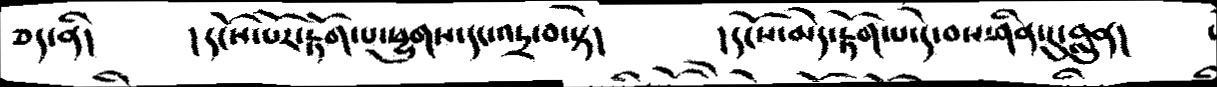ཅད་ནི།    །དངོས་པོར་རྟོག་པ་ཕྱུགས་དང་འདྲ་བ་སྟེ།    ། དངོས་མེད་རྟོག་པ་དེ་བས་ཤིན་དུ་བླུན།
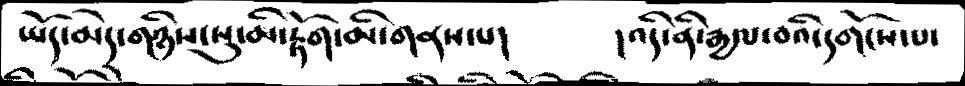ཡོད་མེད་གཉིས་སུ་མི་རྟོག་མི་གནས་པ།     ། འདི་ནི་རྒྱལ་བའི་དགོངས་པ་
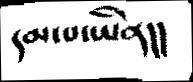དམ་པ་ཡིན།།
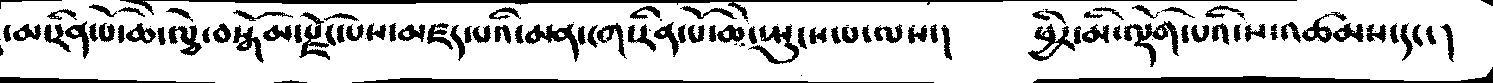་མ་རིན་པོ་ཆེ་ལྕེ་བསྒོམ་རྫོང་པས་མཛད་པའི་མན་ངག་རིན་པོ་ཆེ་སྤུངས་པ་ལས་།   ཕྱིར་མི་ལྡོག་པའི་ས་མཚམས་དང་
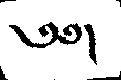༄༅།
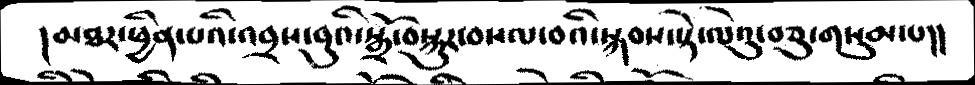།མཐར་ཕྱིན་པའི་འབྲས་བུའི་སྒྲོ་བསྐུར་བསལ་བའི་སྐབས་སྟེ་ལེའུ་བཅུ་གསུམ་པ།།
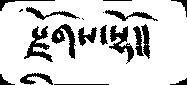རྫོགས་སྷོ།།
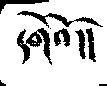དགེའོ།།
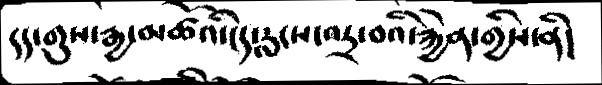དད་གུས་རྒྱ་མཚོའི་ངད་རླངས་འདྲ་བའི་རྐྱེན་གྱིས་ནི།
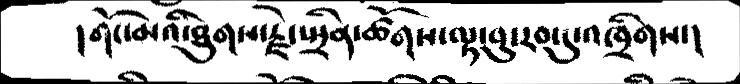།གོང་མའི་ཐུགས་རྗེ་སྤྲིན་ཚོགས་ལྟ་བུ་རབ་དུ་འཁྲིགས་།
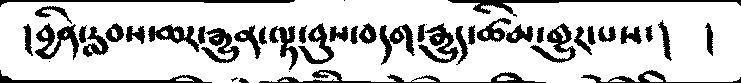།བྱིན་རླབས་ཆར་རྒྱུན་ལྟ་བུས་བདག་རྒྱུད་ཚིམ་གྱུར་པས་།  །
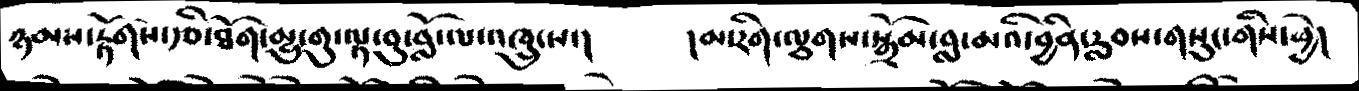ཉམས་རྟོགས་རྩི་ཐོག་མྱུ་གུ་ལྟ་བུ་བློ་ལ་འཁྲུངས་།        །མ་རིག་ལྕགས་སྒྲོམ་བླ་མའི་བྱིན་རླབས་གསུང་གིས་ཕྱེ།
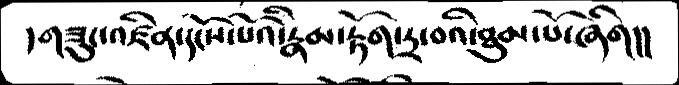།གཟུང་འཛིན་དངོས་པོའི་རྣམ་རྟོག་དྲ་བའི་ཐུམ་པོ་ཞིག།།
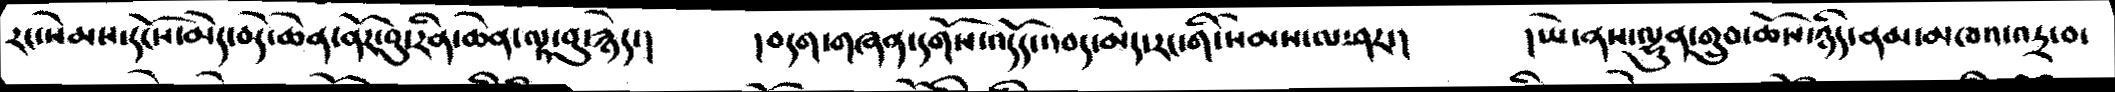རང་སེམས་དངོས་མེད་བདེ་ཆེན་ནོར་བུ་རིན་ཆེན་ལྟ་བུ་རྙེད་།   །བདག་གཞན་དགོས་འདོད་འབད་མེད་རང་གི་སེམས་ལ་ཤར་།    །ཡེ་ནས་ལྷུན་གྲུབ་ཆོས་ཉིད་ནམ་མཁའ་འདྲ་བ་
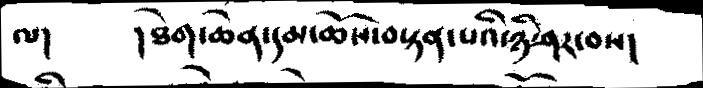ལ།  །ཐེག་ཆེན་དམ་ཆོས་བསྟན་པའི་ཉི་ཤར་བས།
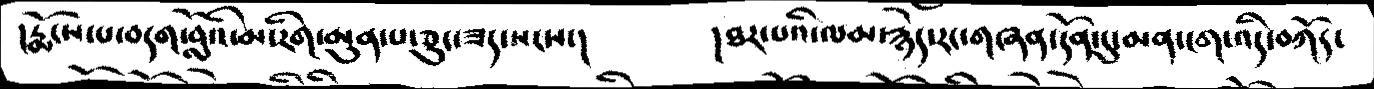།རྨོངས་པ་བདག་བློའི་མ་རིག་མུན་པ་ཅུང་ཟད་སངས་།་        །ཐར་པའི་ལམ་རྙེད་རང་གཞན་དོན་དུ་མན་ངག་འདི་བཀོད་
